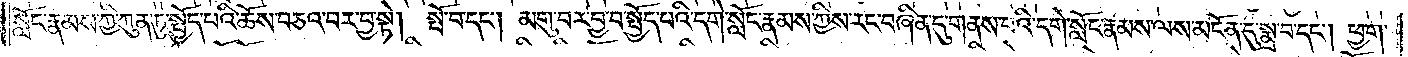སློང་རྣམས་ཀྱི་ཀུན་ཏུ་སྤྱོད་པའི་ཆོས་བཅའ་བར་བྱ་སྟེ། སྤོ་བ་དང༌། མགུ་བར་བྱ་བ་སྤྱོད་པའི་དགེ་སློང་རྣམས་ཀྱིས་རང་བཞིན་དུ་གནས་པའི་དགེ་སློང་རྣམས་ལས་མངོན་དུ་སྨྲ་བ་དང༌། ཕྱག་
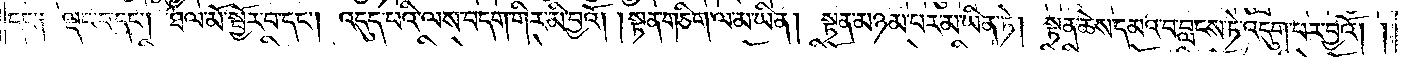དང་༑ ལྡང་བ་དང༌། ཐལ་མོ་སྦྱོར་བ་དང༌། འདུད་པའི་ལས་བདག་གིར་མི་བྱའོ། །སྟན་གཅིག་ལ་མ་ཡིན། སྟན་མཉམ་པར་མ་ཡིན་ཏེ། སྟན་ཆེས་དམའ་བ་བླངས་ཏེ་འདུག་པར་བྱའོ། །
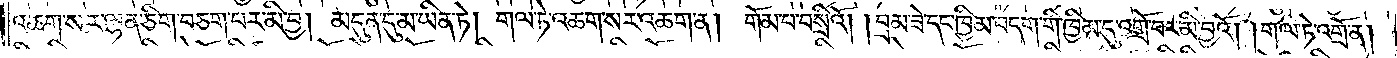འཆག་སར་ལྷན་ཅིག་བཅག་པར་མི་བྱ། མདུན་དུ་མ་ཡིན་ཏེ། གལ་ཏེ་འཆག་སར་འཆག་ན། གོམ་པ་བསྲིའོ། །བྲམ་ཟེ་དང་ཁྱིམ་བདག་གི་ཁྱིམ་དུ་འགྲོ་བར་མི་བྱའོ། །གལ་ཏེ་འགྲོ་ན།
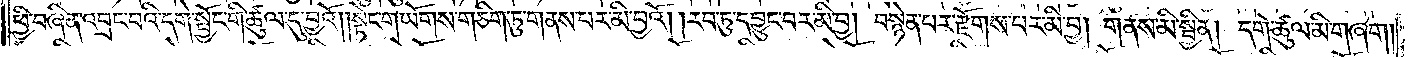ཕྱི་བཞིན་འབྲང་བའི་དགེ་སྦྱོང་གི་ཚུལ་དུ་བྱའོ། །སྟེང་གཡོགས་གཅིག་ཏུ་གནས་པར་མི་བྱའོ། །རབ་ཏུ་དབྱུང་བར་མི་བྱ། བསྙེན་པར་རྫོགས་པར་མི་བྱ། གནས་མི་སྦྱིན། དགེ་ཚུལ་མི་གཞག །
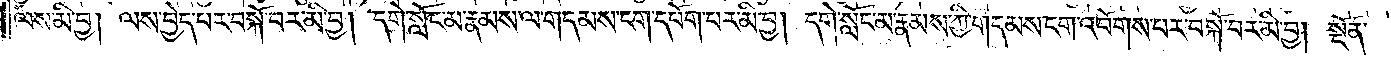ལས་མི་བྱ། ལས་བྱེད་པར་བསྐོ་བར་མི་བྱ། དགེ་སློང་མ་རྣམས་ལ་གདམས་ངག་དཔོག་པར་མི་བྱ། དགེ་སློང་མ་རྣམས་ཀྱི་གདམས་ངག་འབོགས་པར་བསྐོ་བར་མི་བྱ། སྔོན་
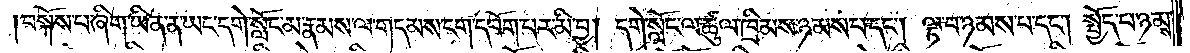བསྐོས་པ་ཞིག་ཡིན་ན་ཡང་དགེ་སློང་མ་རྣམས་ལ་གདམས་ངག་དཔོག་པར་མི་བྱ། དགེ་སློང་ལ་ཚུལ་ཁྲིམས་ཉམས་པ་དང༌། ལྟ་བ་ཉམས་པ་དང༌། སྤྱོད་པ་ཉམས་
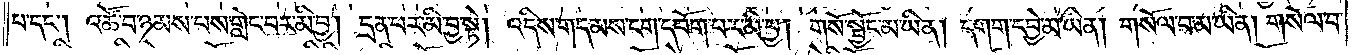པ་དང༌། འཚོ་བ་ཉམས་པས་གླེང་བར་མི་བྱ། དྲན་པར་མི་བྱ་སྟེ། འདིས་གདམས་ངག་དཔོག་པར་མི་བྱ། གསོ་སྦྱོང་མ་ཡིན། དགག་དབྱེ་མ་ཡིན། གསོལ་བ་མ་ཡིན། གསོལ་བ་
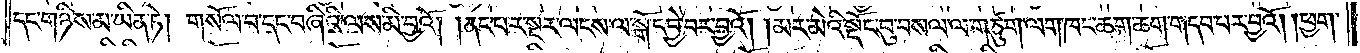དང་གཉིས་མ་ཡིན་ཏེ། གསོལ་བ་དང་བཞིའི་ལས་མི་བྱའོ། །ནང་པར་སྔར་ལངས་ལ་སྒོ་དབྱེ་བར་བྱའོ། །མར་མེའི་སྡོང་བུ་བསལ་ལ་གཙུག་ལག་ཁང་ཆག་ཆག་གདབ་པར་བྱའོ། །ཕྱག་
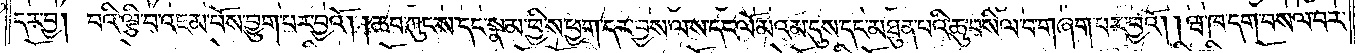དར་བྱ། བའི་ལྕི་བ་འཇམ་པོས་བྱུག་པར་བྱའོ། །ཆབ་ཀུང་ས་དང་སྣམ་ཕྱིས་ཕྱག་དར་བྱས་ལ་ས་དང་ལོ་མའམ་དུས་དང་མཐུན་པའི་ཆུ་བསིལ་བ་གཞག་པར་བྱའོ། །ཝ་ཁ་དག་བསལ་བར་
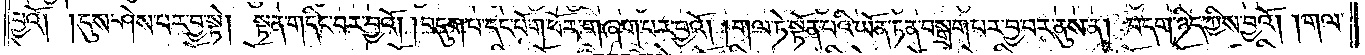བྱའོ། །དུས་ཤེས་པར་བྱ་སྟེ། སྟན་གདིང་བར་བྱའོ། །བདུག་པ་དང་པོར་ཕོར་གཞག་པར་བྱའོ། །གལ་ཏེ་སྟོན་པའི་ཡོན་ཏན་བསྒྲག་པར་བྱ་བར་ནུས་ན། བདག་ཉིད་ཀྱིས་བྱའོ། །གལ་
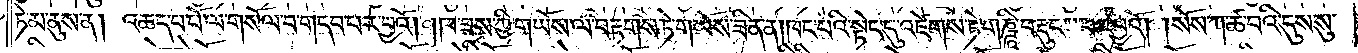ཏེ་མ་ནུས་ན། འཆད་པ་པོ་ལ་གསོལ་བ་གདབ་པར་བྱའོ། །ཁ་ཟས་ཀྱི་གཡོས་ལ་བརྟགས་ཏེ་གཡོས་ཟིན་ན། ཁང་པའི་སྟེང་དུ་འཛེགས་ཏེ་གཎྜཱི་བརྡུང་པར་བྱའོ། །སོས་ཀ་ཚ་བའི་དུས་སུ་
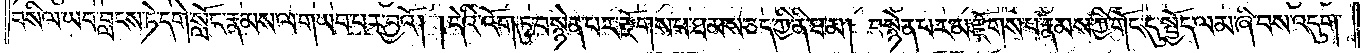བསིལ་ཡབ་བླངས་ཏེ་དགེ་སློང་རྣམས་ལ་གཡབ་པར་བྱའོ། །དེའི་འོག་ཏུ་བསྙེན་པར་རྫོགས་པ་ཐམས་ཅད་ཀྱི་ནི་ཐ་མ། བསྙེན་པར་མ་རྫོགས་པ་རྣམས་ཀྱི་གོང་དུ་སྤྱོད་ལམ་ཞིག་བས་འདུག་
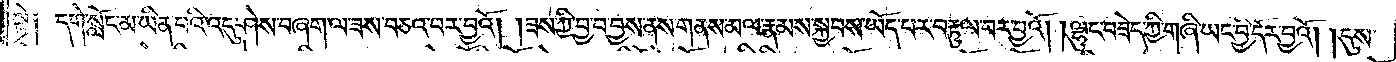སྟེ༑  དགེ་སློང་མ་ཡིན་པའི་འདུ་ཤེས་བཞག་ལ་ཟས་བཅའ་བར་བྱའོ། །ཟས་ཀྱི་བྱ་བ་བྱས་ནས་གནས་མལ་རྣམས་སྐྱབས་ཡོད་པར་བརྟུལ་བར་བྱའོ། །ལྷུང་བཟེད་ཀྱི་གཞི་ཡང་བྱི་དོར་བྱའོ། །དུས་
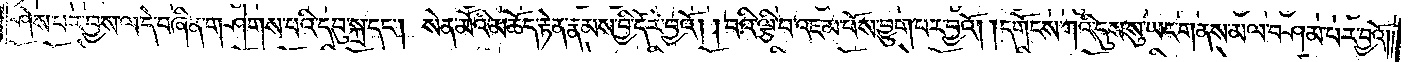ཤེས་པར་བྱས་ལ་དེ་བཞིན་གཤེགས་པའི་དབུ་སྐྲ་དང༌། སེན་མོའི་མཆོད་རྟེན་རྣམས་བྱི་དོར་བྱའོ། །བའི་ལྕི་བ་འཇམ་པོས་བྱུག་པར་བྱའོ། །དགོངས་ཀའི་དུས་སུ་ཡང་གནས་མལ་བཤམ་པར་བྱའོ། །
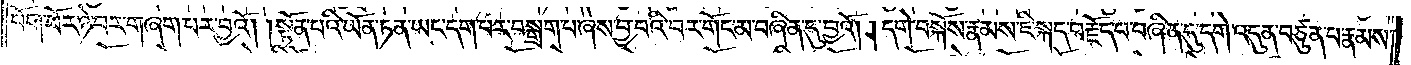པོག་ཕོར་ཉེ་བར་གཞག་པར་བྱའོ། །སྟོན་པའི་ཡོན་ཏན་ཡང་དག་པར་བསྒྲག་པ་ཞེས་བྱ་བའི་བར་གོང་མ་བཞིན་དུ་བྱའོ། །དགེ་བསྐོས་རྣམས་ཇི་སྐད་བརྗོད་པ་བཞིན་དུ་དགེ་འདུན་བཙུན་པ་རྣམས་
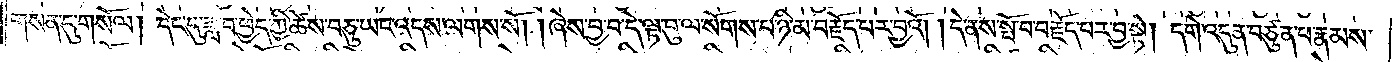གསན་དུ་གསོལ། དེང་དུ་ཟླ་བ་ཕྱེད་ཀྱི་ཚེས་བཅུ་ཡང་འདས་ལགས་སོ། །ཞེས་བྱ་བ་དེ་ལྟ་བུ་ལ་སོགས་པ་ཉི་མ་བརྗོད་པར་བྱའོ། །དེ་ནས་སྤོ་བ་བརྗོད་པར་བྱ་སྟེ། དགེ་འདུན་བཙུན་པ་རྣམས་
